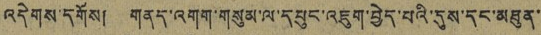འདེགས་དགོས། གནད་འགག་གསུམ་ལ་དཔུང་འཇུག་བྱེད་པའི་དུས་དང་མཐུན་
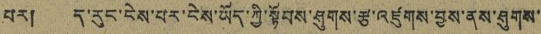བར། ད་རུང་ངེས་པར་ངེས་ཡོད་ཀྱི་སྟོབས་ཤུགས་རྩ་འཛུགས་བྱས་ནས་ཤུགས་
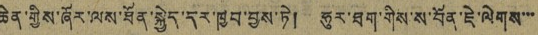ཆེན་གྱིས་ཞོར་ལས་ཐོན་སྐྱེད་དར་ཁྱབ་བྱས་ཏེ། ཧུར་ཐག་གིས་ས་བོན་ཇེ་ལེགས་་་
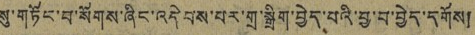སུ་གཏོང་བ་སོགས་ཞིང་འདེབས་པར་གྲ་སྒྲིག་བྱེད་པའི་བྱ་བ་བྱེད་དགོས།
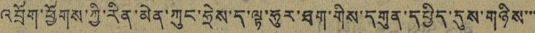འབྲོག་ཕྱོགས་ཀྱི་རིན་མེན་ཀུང་ཧྲེས་ད་ལྟ་ཧུར་ཐག་གིས་དགུན་དཔྱིད་དུས་གཉིས་་་
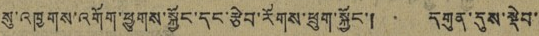སུ་འཁྱགས་འགོག་ཕྱུགས་སྐྱོང་དང་རྩེབ་རོགས་ཕྲུག་སྐྱོང་། དགུན་དུས་སྡེབ་
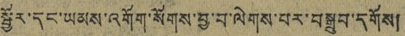སྦྱོར་དང་ཡམས་འགོག་སོགས་བྱ་བ་ལེགས་པར་བསྒྲུབ་དགོས།
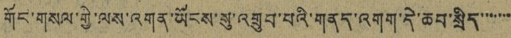གོང་གསལ་གྱི་ལས་འགན་ཡོངས་སུ་འགྲུབ་པའི་གནད་འགག་དེ་ཆབ་སྲིད་་་་་་་
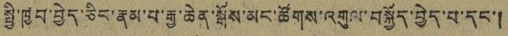སྤྱི་ཁྱབ་བྱེད་ཅིང་རྣམ་པ་རྒྱ་ཆེན་སྒོས་མང་ཚོགས་འགུལ་བསྐྱོད་བྱེད་པ་དང་།
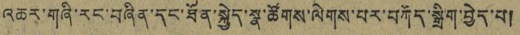འཆར་གཞི་རང་བཞིན་དང་ཐོན་སྐྱེད་སྣ་ཚོགས་ལེགས་པར་བཀོད་སྒྲིག་བྱེད་པ།
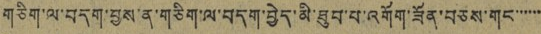གཅིག་ལ་བདག་བྱས་ན་གཅིག་ལ་བདག་བྱེད་མི་ཐུབ་པ་འགོག་ཟོན་བཅས་གང་་་་་་
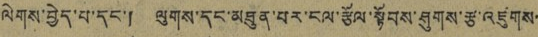ལེགས་བྱེད་པ་དང་། ལུགས་དང་མཐུན་པར་ངལ་རྩོལ་སྟོབས་ཤུགས་རྩ་འཛུགས་
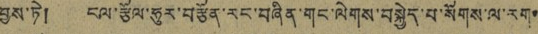བྱས་ཏེ། ངལ་རྩོལ་ཧུར་བརྩོན་རང་བཞིན་གང་ལེགས་བསྐྱེད་པ་སོགས་ལ་རག་
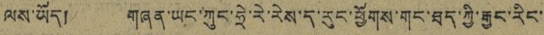ལས་ཡོད། གཞན་ཡང་ཀུང་ཧྲེ་རེ་རེས་ད་རུང་ཕྱོགས་གང་ཐད་ཀྱི་རྒྱང་རིང་
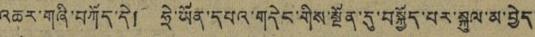འཆར་གཞི་བཀོད་དེ། ཧྲེ་ཡོན་དཔའ་གདེང་གིས་སྔོན་དུ་བསྐྱོད་པར་སྐུལ་མ་བྱེད་
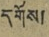དགོས།
